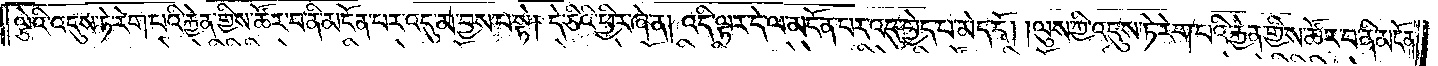ལྕེའི་འདུས་ཏེ་རེག་པའི་རྐྱེན་གྱིས་ཚོར་བ་ནི་མངོན་པར་འདུ་མ་བྱས་པ་སྟེ། དེ་ཅིའི་ཕྱིར་ཞེ་ན། འདི་ལྟར་དེ་ལ་མངོན་པར་འདུ་བྱེད་པ་མེད་དོ། །ལུས་ཀྱི་འདུས་ཏེ་རེག་པའི་རྐྱེན་གྱིས་ཚོར་བ་ནི་མངོན་
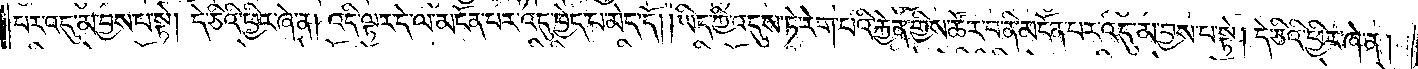པར་འདུ་མ་བྱས་པ་སྟེ། དེ་ཅིའི་ཕྱིར་ཞེ་ན། འདི་ལྟར་དེ་ལ་མངོན་པར་འདུ་བྱེད་པ་མེད་དོ། །ཡིད་ཀྱི་འདུས་ཏེ་རེག་པའི་རྐྱན་གྱིས་ཚོར་བ་ནི་མངོན་པར་འདུ་མ་བྱས་པ་སྟེ། དེ་ཅིའི་ཕྱིར་ཞེ་ན།
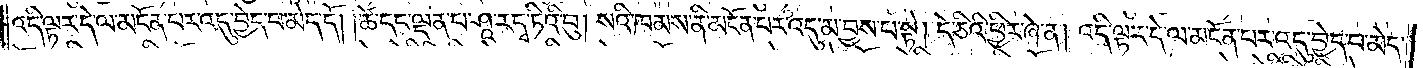འདི་ལྟར་དེ་ལ་མངོན་པར་འདུ་བྱེད་པ་མེད་དོ། །ཚེ་དང་ལྡན་པ་ཤཱ་ར་དྭ་ཏིའི་བུ། སའི་ཁམས་ནི་མངོན་པར་འདུ་མ་བྱས་པ་སྟེ། དེ་ཅིའི་ཕྱིར་ཞེ་ན། འདི་ལྟར་དེ་ལ་མངོན་པར་འདུ་བྱེད་པ་མེད་
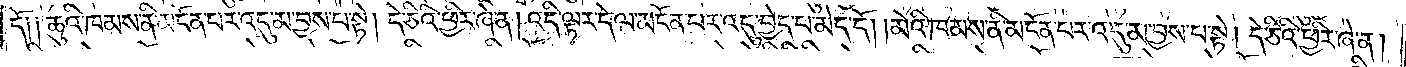དོ༑ ༑ཆུའི་ཁམས་ནི་མངོན་པར་འདུ་མ་བྱས་པ་སྟེ། དེ་ཅིའི་ཕྱིར་ཞེ་ན། འདི་ལྟར་དེ་ལ་མངོན་པར་འདུ་བྱེད་པ་མེད་དོ། །མེའི་ཁམས་ནི་མངོན་པར་འདུ་མ་བྱས་པ་སྟེ། དེ་ཅིའི་ཕྱིར་ཞེ་ན།
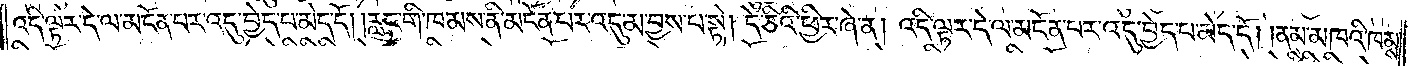འདི་ལྟར་དེ་ལ་མངོན་པར་འདུ་བྱེད་པ་མེད་དོ། །རླུང་གི་ཁམས་ནི་མངོན་པར་འདུ་མ་བྱས་པ་སྟེ། དེ་ཅིའི་ཕྱིར་ཞེ་ན། འདི་ལྟར་དེ་ལ་མངོན་པར་འདུ་བྱེད་པ་མེད་དོ། །ནམ་མཁའི་ཁམས་
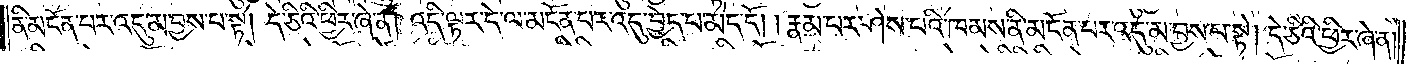ནི་མངོན་པར་འདུ་མ་བྱས་པ་སྟེ། དེ་ཅིའི་ཕྱིར་ཞེ་ན། འདི་ལྟར་དེ་ལ་མངོན་པར་འདུ་བྱེད་པ་མེད་དོ། །རྣམ་པར་ཤེས་པའི་ཁམས་ནི་མངོན་པར་འདུ་མ་བྱས་པ་སྟེ། དེ་ཅིའི་ཕྱིར་ཞེ་ན།
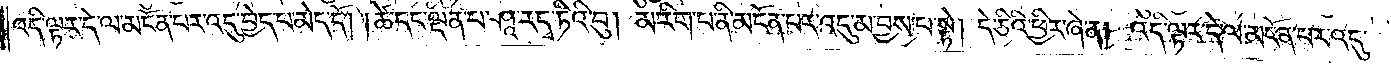འདི་ལྟར་དེ་ལ་མངོན་པར་འདུ་བྱེད་པ་མེད་དོ། །ཚེ་དང་ལྡན་པ་ཤཱ་ར་དྭ་ཏིའི་བུ། མ་རིག་པ་ནི་མངོན་པར་འདུ་མ་བྱས་པ་སྟེ། དེ་ཅིའི་ཕྱིར་ཞེ་ན། འདི་ལྟར་དེ་ལ་མངོན་པར་འདུ་
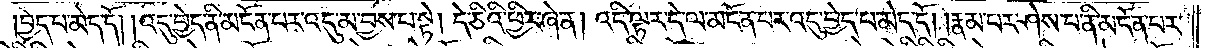བྱེད་པ་མེད་དོ། །འདུ་བྱེད་ནི་མངོན་པར་འདུ་མ་བྱས་པ་སྟེ། དེ་ཅིའི་ཕྱིར་ཞེ་ན། འདི་ལྟར་དེ་ལ་མངོན་པར་འདུ་བྱེད་པ་མེད་དོ། །རྣམ་པར་ཤེས་པ་ནི་མངོན་པར་
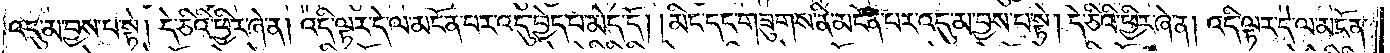འདུ་མ་བྱས་པ་སྟེ། དེ་ཅིའི་ཕྱིར་ཞེ་ན། འདི་ལྟར་དེ་ལ་མངོན་པར་འདུ་བྱེད་པ་མེད་དོ། །མིང་དང་གཟུགས་ནི་མངོན་པར་འདུ་མ་བྱས་པ་སྟེ། དེ་ཅིའི་ཕྱིར་ཞེ་ན། འདི་ལྟར་དེ་ལ་མངོན་
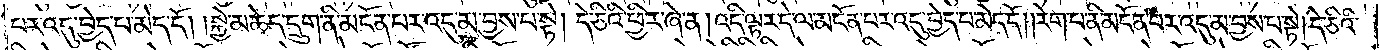པར་འདུ་བྱེད་པ་མེད་དོ། །སྐྱེ་མཆེད་དྲུག་ནི་མངོན་པར་འདུ་མ་བྱས་པ་སྟེ། དེ་ཅིའི་ཕྱིར་ཞེ་ན། འདི་ལྟར་དེ་ལ་མངོན་པར་འདུ་བྱེད་པ་མེད་དོ། །རེག་པ་ནི་མངོན་པར་འདུ་མ་བྱས་པ་སྟེ། དེ་ཅིའི་
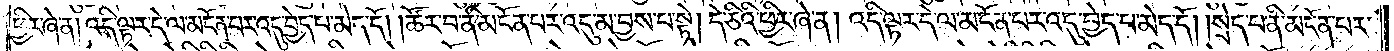ཕྱིར་ཞེ་ན། འདི་ལྟར་དེ་ལ་མངོན་པར་འདུ་བྱེད་པ་མེད་དོ། །ཚོར་བ་ནི་མངོན་པར་འདུ་མ་བྱས་པ་སྟེ། དེ་ཅིའི་ཕྱིར་ཞེ་ན། འདི་ལྟར་དེ་ལ་མངོན་པར་འདུ་བྱེད་པ་མེད་དོ། །སྲེད་པ་ནི་མངོན་པར་
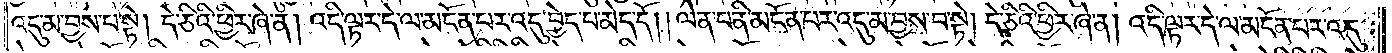འདུ་མ་བྱས་པ་སྟེ། དེ་ཅིའི་ཕྱིར་ཞེ་ན། འདི་ལྟར་དེ་ལ་མངོན་པར་འདུ་བྱེད་པ་མེད་དོ། །ལེན་པ་ནི་མངོན་པར་འདུ་མ་བྱས་པ་སྟེ། དེ་ཅིའི་ཕྱིར་ཞེ་ན། འདི་ལྟར་དེ་ལ་མངོན་པར་འདུ་
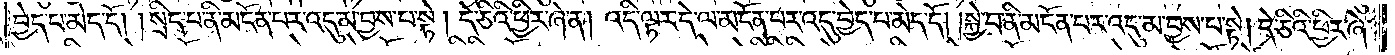བྱེད་པ་མེད་དོ། །སྲིད་པ་ནི་མངོན་པར་འདུ་མ་བྱས་པ་སྟེ། དེ་ཅིའི་ཕྱིར་ཞེ་ན། འདི་ལྟར་དེ་ལ་མངོན་པར་འདུ་བྱེད་པ་མེད་དོ། །སྐྱེ་བ་ནི་མངོན་པར་འདུ་མ་བྱས་པ་སྟེ། དེ་ཅིའི་ཕྱིར་ཞེ་
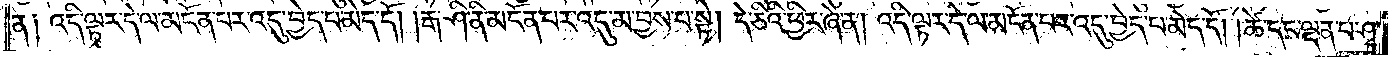ན༑ འདི་ལྟར་དེ་ལ་མངོན་པར་འདུ་བྱེད་པ་མེད་དོ། །རྒ་ཤི་ན་མངོན་པར་འདུ་མ་བྱས་པ་སྟེ། དེ་ཅིའི་ཕྱིར་ཞེ་ན། འདི་ལྟར་དེ་ལ་མངོན་པར་འདུ་བྱེད་པ་མེད་དོ། །ཚེ་དང་ལྡན་པ་ཤཱ་
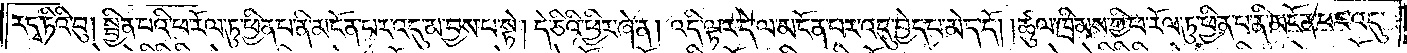ར་དྭ་ཏིའི་བུ། སྦྱིན་པའི་ཕ་རོལ་ཏུ་ཕྱིན་པ་ནི་མངོན་པར་འདུ་མ་བྱས་པ་སྟེ། དེ་ཅིའི་ཕྱིར་ཞེ་ན། འདི་ལྟར་དེ་ལ་མངོན་པར་འདུ་བྱེད་པ་མེད་དོ། །ཚུལ་ཁྲིམས་ཀྱི་ཕ་རོལ་ཏུ་ཕྱིན་པ་ནི་མངོན་པར་འདུ་
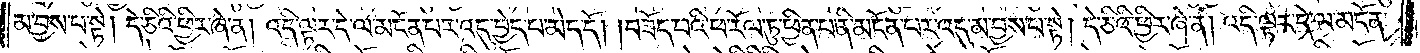མ་བྱས་པ་སྟེ། དེ་ཅིའི་ཕྱིར་ཞེ་ན། འདི་ལྟར་དེ་ལ་མངོན་པར་འདུ་བྱེད་པ་མེད་དོ། །བཟོད་པའི་ཕ་རོལ་ཏུ་ཕྱིན་པ་ནི་མངོན་པར་འདུ་མ་བྱས་པ་སྟེ། དེ་ཅིའི་ཕྱིར་ཞེ་ན། འདི་ལྟར་དེ་ལ་མངོན་
